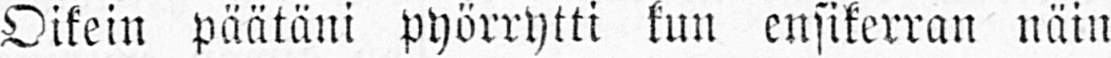Oikein päätäni pyörrytti kun ensikerran näin
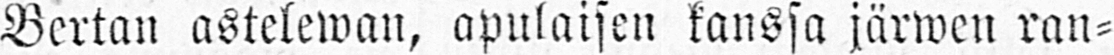Bertan astelewan, apulaisen kanssa järwen ran-
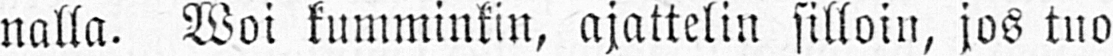nalla. Woi kumminkin, ajattelin silloin, jos tuo
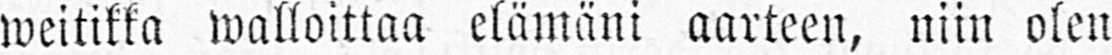weitikka walloittaa elämäni aarteen, niin olen
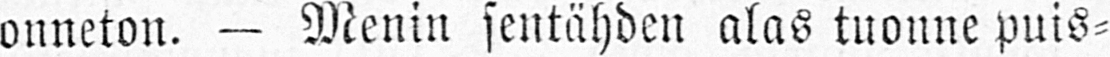onneton. — Menin sentähden alas tuonne puis-
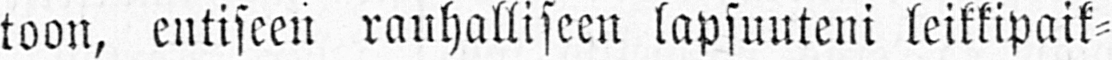toon, entiseen rauhalliseen lapsuuteni leikkipaik-
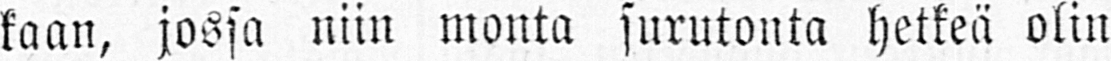kaan, jossa niin monta surutonta hetkeä olin
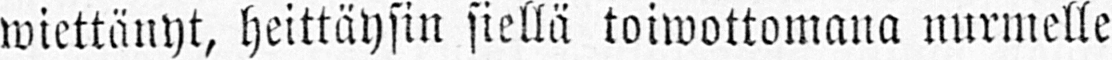wiettänyt, heittäysin siellä toiwottomana nurmelle
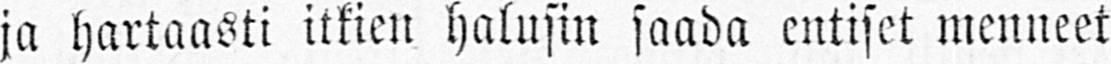ja hartaasti itkien halusin saada entiset menneet
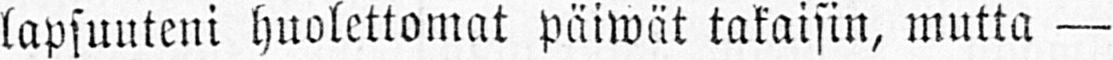lapsuuteni huolettomat päiwät takaisin, mutta —
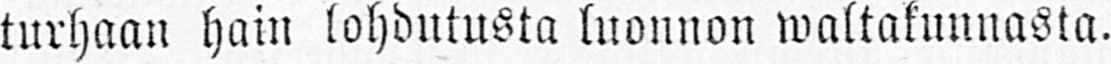turhaan hain lohdutusta luonnon waltakunnasta.
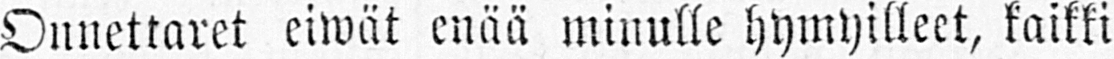Onnettaret eiwät enää minulle hymyilleet, kaikki
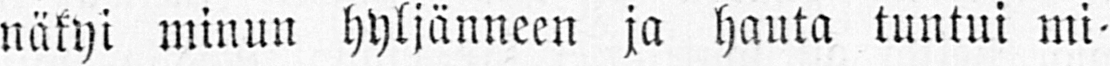näkyi minun hyljänneen ja hauta tuntui mi-
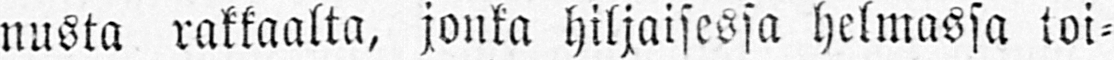nusta rakkaalta, jonka hiljaisessa helmassa toi-
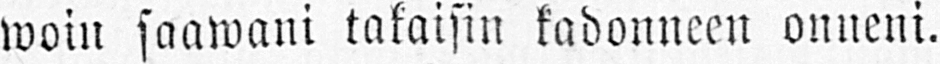woin saawani takaisin kadonneen onneni.
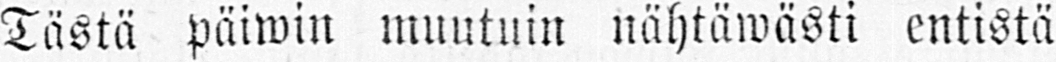Tästä päiwin muutuin nähtäwästi entistä
